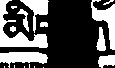མིང ག
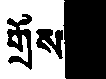གྲོས
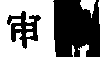审
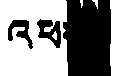འཕ
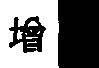增
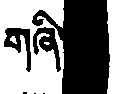གཞི
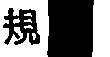規
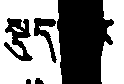སྡུད  ར
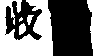收
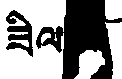ཟིལ
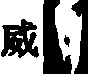威
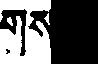གས
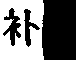补
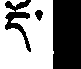དོ་
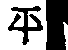平
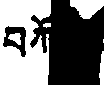བཀོ
